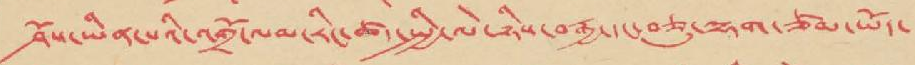ཤོས་ཡིན་པའི་འགྲོ་ལམ་རིང་ཚད་སྤྱི་ལེ་ཉིས་བརྒྱ་དང་བཅུ་ལྷག་ཙམ་ཡོད་
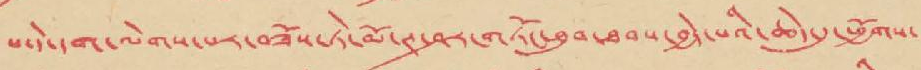པ་དེ་དག་ལེགས་པར་བཟོས་ཏེ་མོ་ཊ་ཤར་གཏོང་ཐུབ་ཐབས་བྱེད་པའི་ཆེད་དུ་ཕྱོགས་
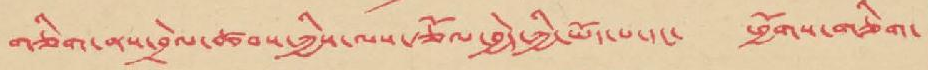གཅིག་ནས་བྲེལ་ཚབས་ཀྱིས་ལས་རྩོལ་བྱེད་ཀྱི་ཡོད་པ་དང་ ཕྱོགས་གཅིག་
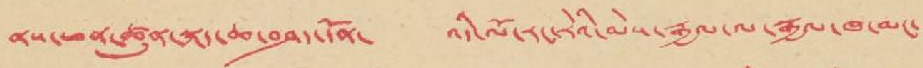ནས་ཕན་ཚུན་ནད་ཆ་བཤད་དོན་ འདི་ལོ་རང་རེའི་མེས་རྒྱལ་ལ་རྒྱལ་ཁ་མང་
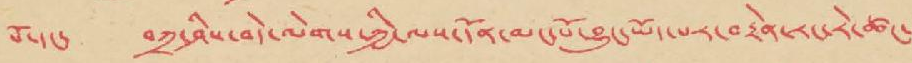པོ་དང་ བཀྲ་ཤིས་བདེ་ལེགས་ཀྱི་ལས་དོན་མང་པོ་བྱུང་ཡོད་པར་བརྟེན་རང་རེ་ཚང་
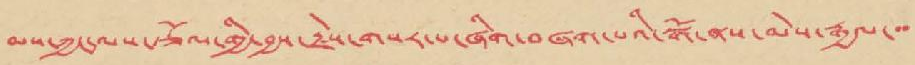མས་ཀྱང་ལས་རྩོལ་གྱི་བྱས་རྗེས་གསར་པ་ཞིག་བཞག་པའི་སྒོ་ནས་མེས་རྒྱལ་་་
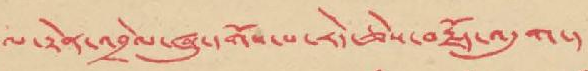ལ་རྟེན་འབྲེལ་ཞུ་དགོས་པ་རེད་ཅེས་བརྗོད་འདུག་།
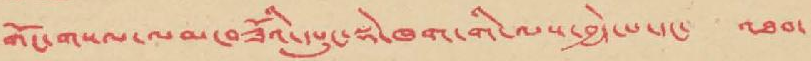གོང་གསལ་ལམ་བཟོའི་དཔུང་སྡེ་ཁག་གི་ལས་བྱེད་པ་དང་ འཐབ་
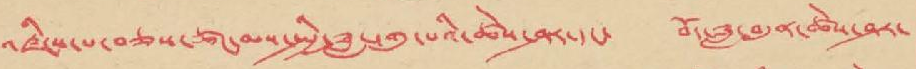འཛིངས་པ་བཅས་ཚང་མས་སྤྱི་ཟླ་དགུ་པའི་ཚེས་ཤར་དང་ བོད་ཟླ་བདུན་ཚེས་ཤར་
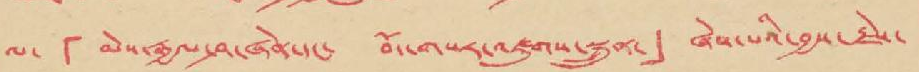ལ་ 「མེས་རྒྱལ་ཤ་ཞེན་དང་ བོད་གསར་འཛུགས་སྐྲུན་」 ཞེས་པའི་བྱས་རྗེས་
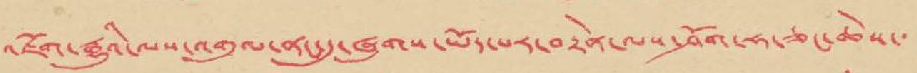འཇོག་རྒྱུའི་ལས་འགུལ་ནང་དུ་ཞུགས་ཡོད་པར་བརྟེན་ལས་ཤོག་ཧ་ཅང་ཆེས་་
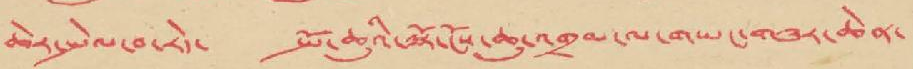ཆེར་སྤེལ་བ་རེད་ སྤོ་ཆུའི་ལྷོ་ངོས་ཆུ་འགྲམ་ལ་གཡང་གཟར་ཆེན་
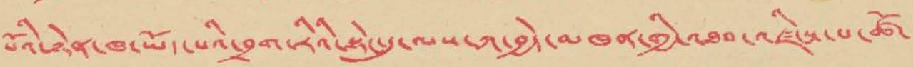པོའི་ཉེན་ཁ་ཡོད་པའི་བྲག་རིའི་སྟེང་དུ་ལས་ཀ་བྱེད་མཁན་གྱི་འཐབ་འཛིངས་པ་ཚོ་
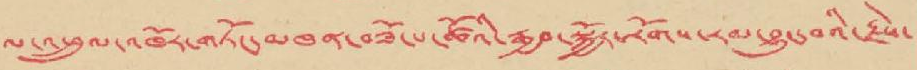ལ་འཕྲུལ་འཁོར་གཏོང་མཁན་བཟོ་པ་ཚོའི་རྒྱབ་སྐྱོར་རོགས་རམ་བྱུང་བའི་རྗེས་
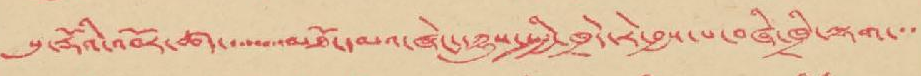སུ་རྡོའི་འབོར་ཚད་་་་་མཐོ་དམའ་ཞེང་དཀྱུས་སྤྱི་ཁྲེད་རེ་བྱས་པ་བཞི་ཁྲི་ལྷག་་་
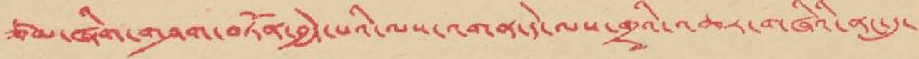ཙམ་ཞིག་གཤག་བཏོན་བྱེད་པའི་ལས་འགན་དེ་ལས་གྲྭའི་འཆར་གཞིའི་ནང་དུ་
